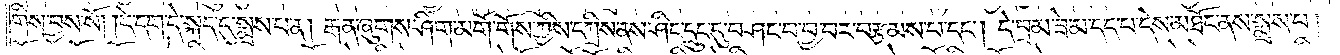གིས་བྱས་སོ། །དེ་དག་དེ་སྐད་དུ་སྨྲས་པ་ན། རྒན་ཞུགས་ཤིང་མགོ་གོས་ཀྱི་དཀྲིས་ནས་ཤིང་དྲུང་དུ་བཤང་བ་བྱ་བར་བརྩམས་པ་དང༌། དེ་བྲམ་ཟེ་མ་དད་པ་དེས་མཐོང་ནས་སྨྲས་པ།
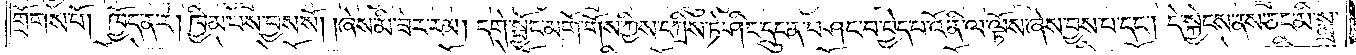གྲོགས་པོ། ཁྱོད་ན་རེ། ཁྱིམ་པས་བྱས་སོ། །ཞེས་མི་ཟེར་རམ། དགེ་སྦྱོང་མགོ་གོས་ཀྱིས་དཀྲིས་ཏེ་ཤིང་དྲུང་ན་བཤང་བ་བྱེད་པ་འོ་ནི་ལ་ལྟོས་ཞེས་བྱས་པ་དང༌། དེ་སྐྱེངས་ནས་ཅང་མི་སྨྲ་
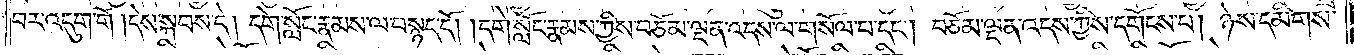བར་འདུག་གོ །དེས་སྐབས་དེ། དགེ་སློང་རྣམས་ལ་བསྙད་དེ། དགེ་སློང་རྣམས་ཀྱིས་བཅོམ་ལྡན་འདས་ལ་གསོལ་པ་དང༌། བཅོམ་ལྡན་འདས་ཀྱིས་དགོངས་པ། ཉེས་དམིགས་
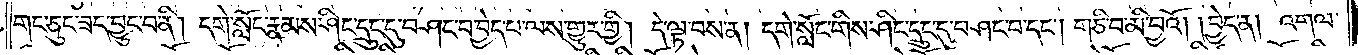གང་ཅུང་ཟད་བྱུང་བ་ནི། དགེ་སློང་རྣམས་ཤིང་དྲུང་དུ་བཤང་བ་བྱེད་པ་ལས་གྱུར་གྱི། དེ་ལྟ་བས་ན། དགེ་སློང་གིས་ཤིང་དྲུང་དུ་བཤང་བ་དང༌། གཅི་བ་མི་བྱའོ། །བྱེད་ན། འགལ་
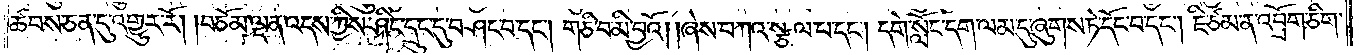ཚབས་ཅན་དུ་འགྱུར་རོ། །བཅོམ་ལྡན་འདས་ཀྱིས་ཤིང་དྲུང་དུ་བཤང་བ་དང༌། གཅི་བ་མི་བྱའོ། །ཞེས་བཀའ་སྩལ་པ་དང༌། དགེ་སློང་དག་ལམ་དུ་ཞུགས་ཏེ་དོང་བ་དང༌། ཇི་ཙམ་ན་འབྲོག་ཅིག་
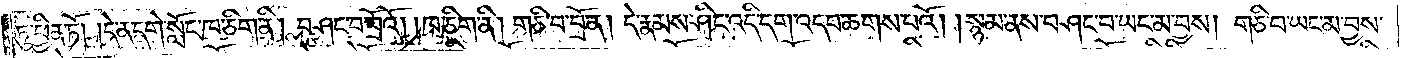ཏུ་ཕྱིན་ཏོ། །དེ་ན་དགེ་སློང་ཁ་ཅིག་ནི། བཤང་པ་བྲོའོ། །ཁ་ཅིག་ནི། གཅི་བ་བྲོ་ན། དེ་རྣམས་ཤིང་འདི་དག་འདབ་ཆགས་པའོ། །སྙམ་ནས་བཤང་བ་ཡང་མ་བྱས། གཅི་བ་ཡང་མ་བྱས་
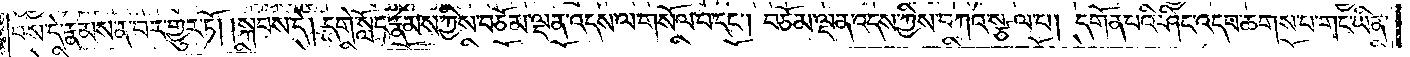བས་དེ་རྣམས་ན་བར་གྱུར་ཏོ། །སྐབས་དེ། དགེ་སློང་རྣམས་ཀྱིས་བཅོམ་ལྡན་འདས་ལ་གསོལ་པ་དང༌། བཅོམ་ལྡན་འདས་ཀྱིས་བཀའ་སྩལ་པ། དགོན་པའི་ཤིང་འདབ་ཆགས་པ་གང་ཡིན་
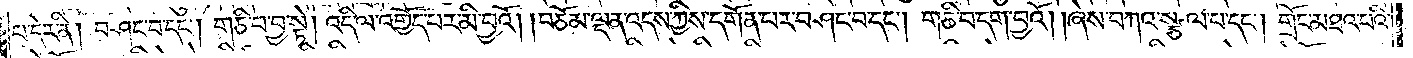པ་དེར་ནི། བཤང་བ་དང༌། གཅི་བ་བྱ་སྟེ། འདི་ལ་འགྱོད་པར་མི་བྱའོ། །བཅོམ་ལྡན་འདས་ཀྱིས་དགོན་པར་བཤང་བ་དང༌། གཅི་བ་དག་བྱའོ། །ཞེས་བཀའ་སྩལ་པ་དང༌། གྲོང་མཐའ་པའི་
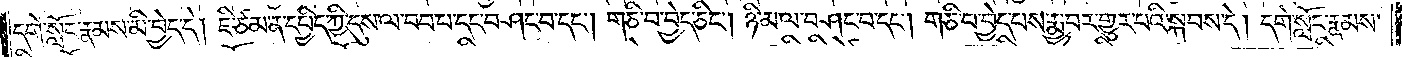དགེ་སློང་རྣམས་མི་བྱེད་དེ། ཇི་ཙམ་ན་དཔྱིད་ཀྱི་དུས་ལ་བབ་པ་དང་བཤང་བ་དང༌། གཅི་བ་བྱེད་ཅིང༌། ཉི་མ་ལ་བཤང་བ་དང༌། གཅི་བ་བྱེད་པས་རྨྱ་བར་གྱུར་པའི་སྐབས་དེ། དགེ་སློང་རྣམས་
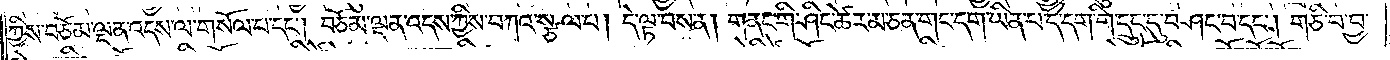ཀྱིས་བཅོམ་ལྡན་འདས་ལ་གསོལ་པ་དང༌། བཅོམ་ལྡན་འདས་ཀྱིས་བཀའ་སྩལ་པ། དེ་ལྟ་བས་ན། གནང་གི་ཤིང་ཚེར་མ་ཅན་གང་དག་ཡིན་པ་དེ་དག་གི་དྲུང་དུ་བཤང་བ་དང༌། གཅི་བ་བྱ་
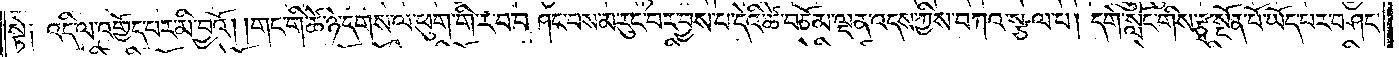སྟེ༑ འདི་ལ་འགྱོད་པར་མི་བྱའོ། །གང་གི་ཚེ་ཉེ་དགས་ལ་ཕུག་གི་ར་བ་བཤང་པས་མ་རུང་བར་བྱས་པ་དེའི་ཚེ་བཅོམ་ལྡན་འདས་ཀྱིས་བཀའ་སྩལ་པ། དགེ་སློང་གིས་རྩྭ་སྔོན་པོ་ཡོད་པར་བཤང་
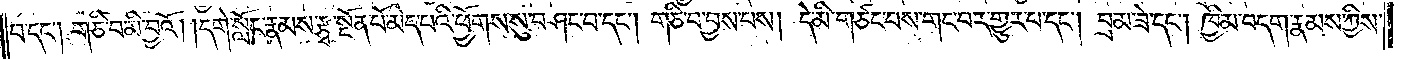པ་དང༌། གཅི་བ་མི་བྱའོ། །དགེ་སློང་རྣམས་རྩྭ་སྔོན་པོ་མེད་པའི་ཕྱོགས་སུ་བཤང་བ་དང༌། གཅི་བ་བྱས་པས། དེ་མི་གཙང་བས་གང་བར་གྱུར་པ་དང༌། བྲམ་ཟེ་དང༌། ཁྱིམ་བདག་རྣམས་ཀྱིས་
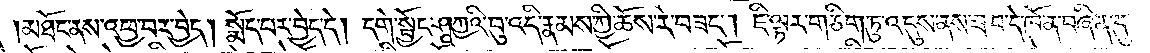མཐོང་ནས་འཕྱ་བར་བྱེད། སྨོད་པར་བྱེད་དེ། དགེ་སྦྱོང་ཤཱཀྱའི་བུ་འདི་རྣམས་ཀྱི་ཆོས་རེ་བཟང༌། ཇི་ལྟར་གཅིག་ཏུ་འདུས་ནས་ཟ་བ་དེ་ཁོ་ན་བཞིན་དུ་
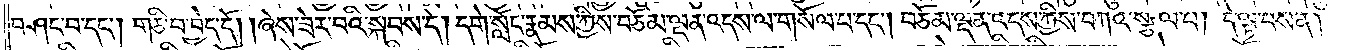བཤང་བ་དང༌། གཅི་བ་བྱེད་དོ། །ཞེས་ཟེར་བའི་སྐབས་དེ། དགེ་སློང་རྣམས་ཀྱིས་བཅོམ་ལྡན་འདས་ལ་གསོལ་པ་དང༌། བཅོམ་ལྡན་འདས་ཀྱིས་བཀའ་སྩལ་པ། དེ་ལྟ་བས་ན།
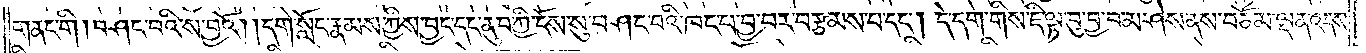གནང་གི །བཤད་བའི་ས་བྱའོ། །དགེ་སློང་རྣམས་ཀྱིས་བྱད་དང་ནུབ་ཀྱི་ངོས་སུ་བཤད་བའི་ཁང་པ་བྱ་བར་བརྩམས་པ་དང༌། དེ་དག་གིས་ཇི་ལྟ་བུ་བྱ་བ་མ་ཤེས་ནས་བཅོམ་ལྡན་འདས་
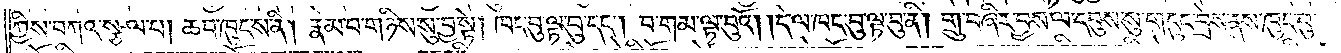ཀྱིས་བཀའ་སྩལ་པ། ཆབ་ཁུངས་ནི། རྣམ་པ་གཉིས་སུ་བྱ་སྟེ། ཁང་བུ་ལྟ་བུ་དང༌། བ་གམ་ལྟ་བུའོ། །དེ་ལ་ཁང་བུ་ལྟ་བུ་ནི། གྲུ་བཞིར་བྱས་ལ་དབུས་སུ་གདུང་བྲེས་ནས་ཁུང་བུ་
